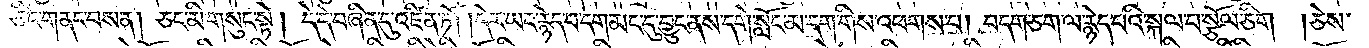ཅིང་གནང་བས་ན། ཅང་མི་གསུང་སྟེ། དེ་དེ་བཞིན་དུ་འཛིན་ཏོ། །དེར་ཡང་རྙེད་པ་དག་མང་དུ་བྱུང་ནས་དགེ་སློང་མ་དག་གིས་འཕགས་པ། བདག་ཅག་ལ་རྙེད་པའི་སྐལ་པ་སྩོལ་ཅིག །ཅེས་
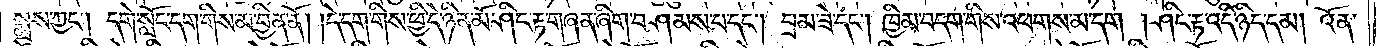སྨྲས་ཀྱང༌། དགེ་སློང་དག་གིས་མ་བྱིན་ནོ། །དེ་དག་གིས་ཕྱི་དེ་ཉིན་མོ་ཤིང་རྟ་གཞན་ཞིག་བཤམས་པ་དང༌། བྲམ་ཟེ་དང༌། ཁྱིམ་བདག་གིས་འཕགས་མ་དང༌། ཤིང་རྟ་འདི་ཉིད་དམ། འོན་
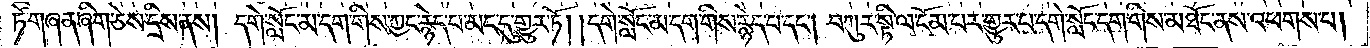ཏེ་གཞན་ཞིག་ཅེས་དྲིས་ནས། དགེ་སློང་མ་དག་གིས་ཀྱང་རྙེད་པ་མང་དུ་གྱུར་ཏོ། །དགེ་སློང་མ་དག་གིས་རྙེད་པ་དང༌། བཀུར་སྟི་ལ་ངོམ་པར་གྱུར་པ་དགེ་སློང་དག་གིས་མཐོང་ནས་འཕགས་པ།
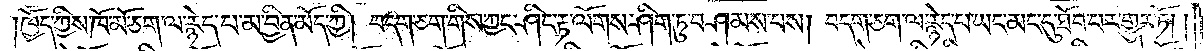ཁྱོད་ཀྱིས་ཁོ་མོ་ཅག་ལ་རྙེད་པ་མ་བྱིན་མོད་ཀྱི། བདག་ཅག་གིས་ཀྱང་ཤིང་རྟ་ལོགས་ཤིག་ཏུ་བཤམས་པས། བདག་ཅག་ལ་རྙེད་པ་ཡང་མང་དུ་ཐོབ་པར་གྱུར་ཏོ། །
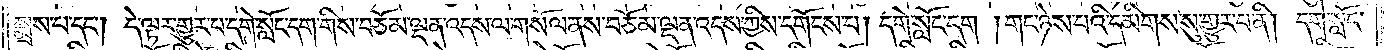སྨྲས་པ་དང༌། དེ་ལྟར་གྱུར་པ་དགེ་སློང་དག་གིས་བཅོམ་ལྡན་འདས་ལ་གསོལ་ནས་བཅོམ་ལྡན་འདས་ཀྱིས་དགོངས་པ། དགེ་སློང་དག །གང་ཉེས་པའི་དམིགས་སུ་གྱུར་པ་ནི། དགེ་སློང་
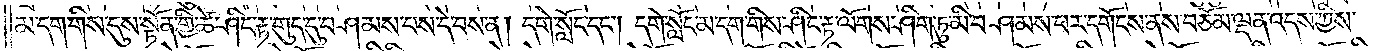མ་དག་གིས་དུས་སྟོན་གྱི་ཚེ་ཤིང་རྟ་གུད་དུ་བཤམས་པས་དེ་བས་ན། དགེ་སློང་དང༌། དགེ་སློང་མ་དག་གིས་ཤིང་རྟ་ལོགས་ཤིག་ཏུ་མི་བཤམས་པར་དགོངས་ནས་བཅོམ་ལྡན་འདས་ཀྱིས་
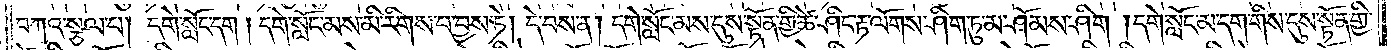བཀའ་སྩལ་པ། དགེ་སློང་དག །དགེ་སློང་མས་མི་རིགས་པ་བྱས་ཏེ། དེ་བས་ན། དགེ་སློང་མས་དུས་སྟོན་གྱི་ཚེ་ཤིང་རྟ་ལོགས་ཤིག་ཏུ་མ་ཤོམས་ཤིག །དགེ་སློང་མ་དག་གིས་དུས་སྟོན་གྱི་
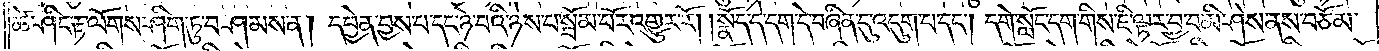ཚེ་ཤིང་རྟ་ལོགས་ཤིག་ཏུ་བཤམས་ན། དབྱེན་བྱས་པ་དང་ཉེ་བའི་ཉེས་པ་སྦོམ་པོར་འགྱུར་རོ། །སྣོད་དེ་དག་དེ་བཞིན་དུ་འདུག་པ་དང༌། དགེ་སློང་དག་གིས་ཇི་ལྟར་བྱ་བ་མི་ཤེས་ནས་བཅོམ་
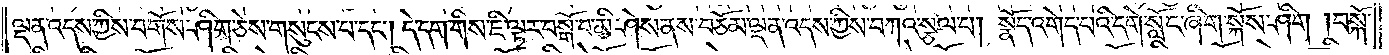ལྡན་འདས་ཀྱིས་བགོས་ཤིག་ཅེས་གསུངས་པ་དང༌། དེ་དག་གིས་ཇི་ལྟར་བསྒོ་བ་མི་ཤེས་ནས་བཅོམ་ལྡན་འདས་ཀྱིས་བཀའ་སྩལ་པ། སྣོད་འགེད་པའི་དགེ་སློང་ཞིག་སྐོས་ཤིག །བསྐོ་
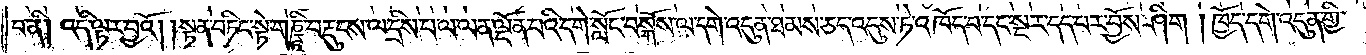བ་ནི། འདི་ལྟར་བྱའོ། །སྟན་བཏིང་སྟེ་གཎྜཱི་བརྡུངས་ལ་དྲིས་པ་ལ་ལན་ལྡོན་པའི་དགེ་སློང་བསྐོས་ལ་དགེ་འདུན་ཐམས་ཅད་འདུས་ཏེ་འཁོད་པ་དང་སྔར་དད་པར་བྱོས་ཤིག །ཁྱོད་དགེ་འདུན་གྱི་
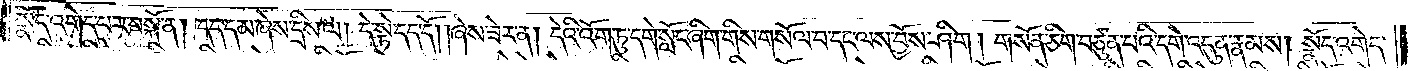སྣོད་འགེད་པར་བསྐོ་ན། དད་དམ་ཞེས་དྲིས་ལ། དེ་སྟེ་དད་དོ། །ཞེས་ཟེར་ན། དེའི་འོག་ཏུ་དགེ་སློང་ཞིག་གིས་གསོལ་བ་དང་ལས་བྱོས་ཤིག། གསོན་ཅིག་བཙུན་པའི་དགེ་འདུན་རྣམས། སྣོད་འགེད་
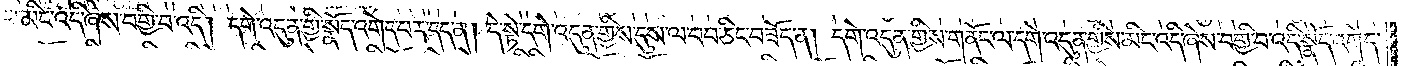པ་མིང་འདི་ཞེས་བགྱི་བ་འདི། དགེ་འདུན་གྱི་སྣོད་འགེད་པར་དད་ན། དེ་སྟེ་དགེ་འདུན་གྱིས་དུས་ལ་བབ་ཅིང་བཟོད་ན། དགེ་འདུན་གྱིས་གནོང་ལ་དགེ་འདུན་གྱིས་མིང་འདི་ཞེས་བགྱི་བ་འདི་སྣོད་འགེད་
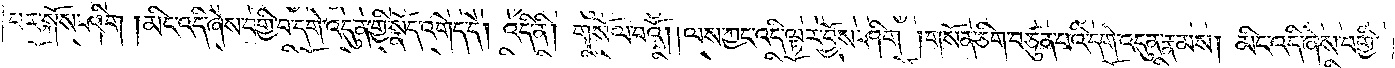པར་སྐོས་ཤིག །མིང་འདི་ཞེས་བགྱི་བ་དགེ་འདུན་གྱི་སྣོད་འགེད་དེ། འདི་ནི། གསོལ་བའོ། །ལས་ཀྱང་འདི་ལྟར་བྱོས་ཤིག །གསོན་ཅིག་བཙུན་པའི་དགེ་འདུན་རྣམས། མིང་འདི་ཞེས་བགྱི་
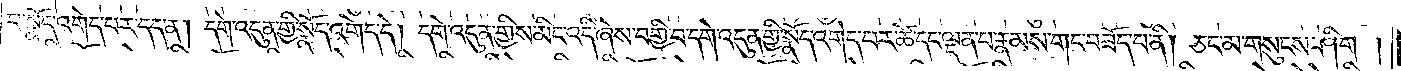བ་སྣོད་འགེད་པར་དད་ན། དགེ་འདུན་གྱི་སྣོད་འགེད་དེ། དགེ་འདུན་གྱིས་མིང་འདི་ཞེས་བགྱི་བ་དགེ་འདུན་གྱི་སྣོད་འགེད་པར་ཚེ་དང་ལྡན་པ་རྣམས་གང་བཟོད་པ་ནི། ཅང་མ་གསུངས་ཤིག །
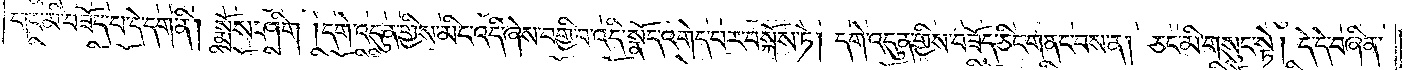གང་མི་བཟོད་པ་དེ་དག་ནི། སྨྲོས་ཤིག །དགེ་འདུན་གྱིས་མིང་འདི་ཞེས་བགྱི་བ་འདི་སྣོད་འགེད་པར་བསྐོས་ཏེ། དགེ་འདུན་གྱིས་བཟོད་ཅིང་གནང་བས་ན། ཅང་མི་གསུང་སྟེ། དེ་དེ་བཞིན་
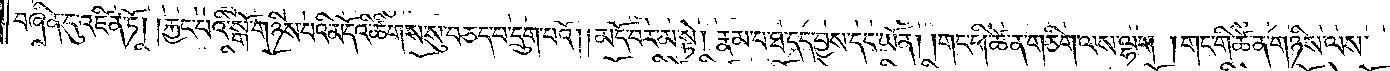བཞིན་དུ་འཛིན་ཏོ། །རྐྱང་པའི་སྒོ་གཉིས་པའི་མདོའི་ཚིགས་སུ་བཅད་པ་དྲུག་པའོ།    །མདོ་བར་མ་སྟེ། རྣམ་པ་ཐ་དད་བྱས་དང་ཡོན། །གང་གི་ཚེ་ན་གཅིག་ལས་ལྷག །གང་གི་ཚེ་ན་གཉིས་ལས་
